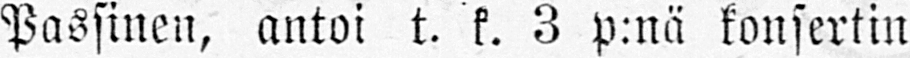Passinen, antoi t. k. 3 p:nä konsertin
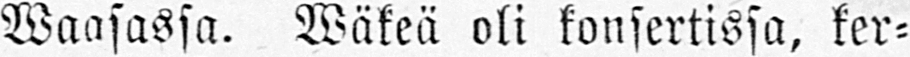Waasassa. Wäkeä oli konsertissa, ker-
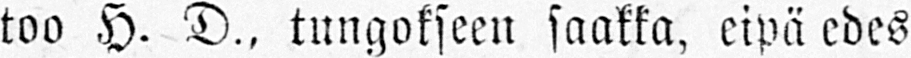too H. D., tungokseen saakka, eipä edes
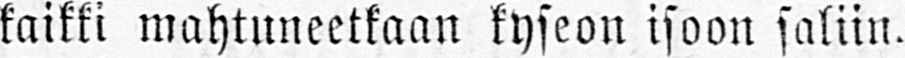kaikki mahtuneetkaan lyseon isoon saliin.
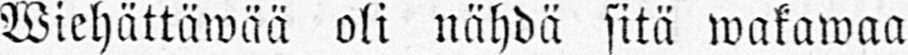Wiehättäwää oli nähdä sitä wakawaa
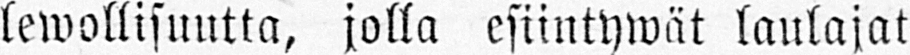lewollisuutta, jolla esiintywät laulajat
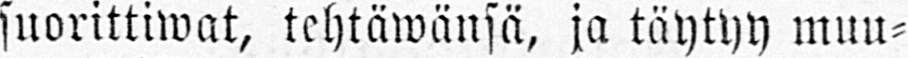suorittiwat, tehtäwänsä, ja täytyy muu-
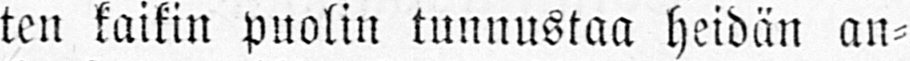ten kaikin puolin tunnustaa heidän an-
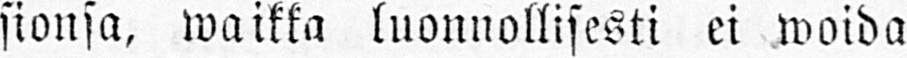sionsa, waikka luonnollisesti ei woida
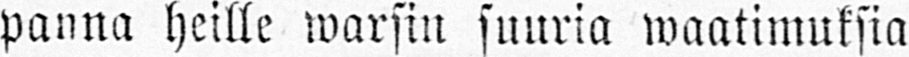panna heille warsin suuria waatimuksia
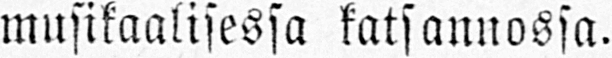musikaalisessa katsannossa.
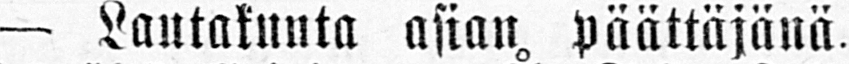— Lautakunta asian päättäjänä.
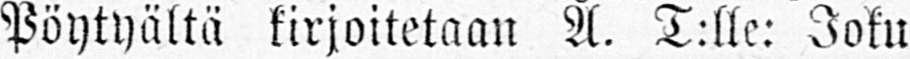Pöytyältä kirjoitetaan Å. T:lle: Joku
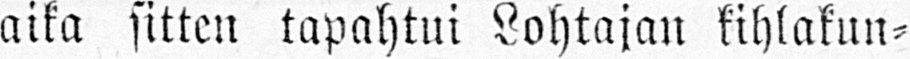aika sitten tapahtui Lohtajan kihlakun-
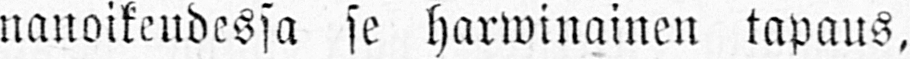nanoikeudessa se harwinainen tapaus,
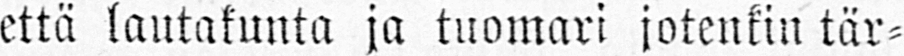että lautakunta ja tuomari jotenkin tär-
